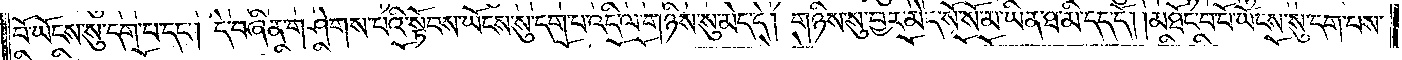པོ་ཡོངས་སུ་དག་པ་དང༌། དེ་བཞིན་གཤེགས་པའི་སྟོབས་ཡོངས་སུ་དག་པ་འདི་ལ་གཉིས་སུ་མེད་དེ། གཉིས་སུ་བྱར་མེད་སོ་སོ་མ་ཡིན་ཐ་མི་དད་དོ། །མཐོང་བ་པོ་ཡོངས་སུ་དག་པས་
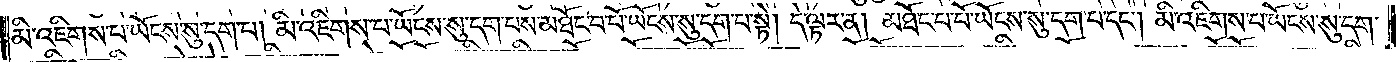མི་འཇིགས་པ་ཡོངས་སུ་དག་པ། མི་འཇིགས་པ་ཡོངས་སུ་དག་པས་མཐོང་བ་པོ་ཡོངས་སུ་དག་པ་སྟེ། དེ་ལྟར་ན། མཐོང་བ་པོ་ཡོངས་སུ་དག་པ་དང༌། མི་འཇིགས་པ་ཡོངས་སུ་དག་
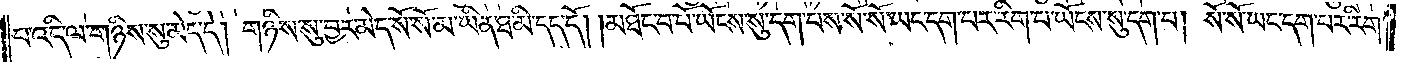པ་འདི་ལ་གཉིས་སུ་མེད་དེ། གཉིས་སུ་བྱར་མེད་སོ་སོ་མ་ཡིན་ཐ་མི་དད་དོ། །མཐོང་བ་པོ་ཡོངས་སུ་དག་པས་སོ་སོ་ཡང་དག་པར་རིག་པ་ཡོངས་སུ་དག་པ། སོ་སོ་ཡང་དག་པར་རིག་
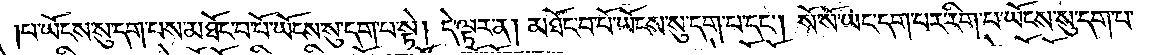པ་ཡོངས་སུ་དག་པས་མཐོང་བ་པོ་ཡོངས་སུ་དག་པ་སྟེ། དེ་ལྟར་ན། མཐོང་བ་པོ་ཡོངས་སུ་དག་པ་དང༌། སོ་སོ་ཡང་དག་པར་རིག་པ་ཡོངས་སུ་དག་པ་
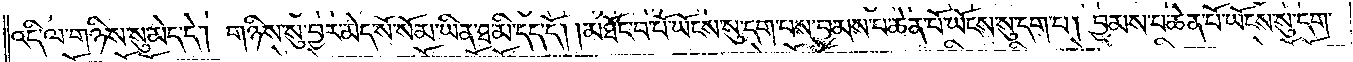འདི་ལ་གཉིས་སུ་མེད་དེ། གཉིས་སུ་བྱར་མེད་སོ་སོ་མ་ཡིན་ཐ་མི་དད་དོ། །མཐོང་བ་པོ་ཡོངས་སུ་དག་པས་བྱམས་པ་ཆེན་པོ་ཡོངས་སུ་དག་པ། བྱམས་པ་ཆེན་པོ་ཡོངས་སུ་དག་
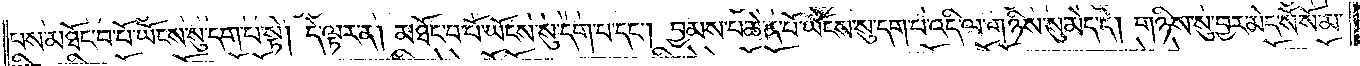པས་མཐོང་བ་པོ་ཡོངས་སུ་དག་པ་སྟེ། དེ་ལྟར་ན། མཐོང་བ་པོ་ཡོངས་སུ་དག་པ་དང༌། བྱམས་པ་ཆེན་པོ་ཡོངས་སུ་དག་པ་འདི་ལ་གཉིས་སུ་མེད་དེ། གཉིས་སུ་བྱར་མེད་སོ་སོ་མ་
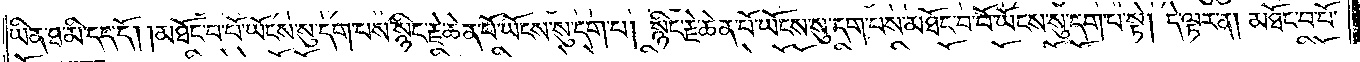ཡིན་ཐ་མི་དད་དོ། །མཐོང་བ་པོ་ཡོངས་སུ་དག་པས་སྙིང་རྗེ་ཆེན་པོ་ཡོངས་སུ་དག་པ། སྙིང་རྗེ་ཆེན་པོ་ཡོངས་སུ་དག་པས་མཐོང་བ་པོ་ཡོངས་སུ་དག་པ་སྟེ། དེ་ལྟར་ན། མཐོང་བ་པོ་
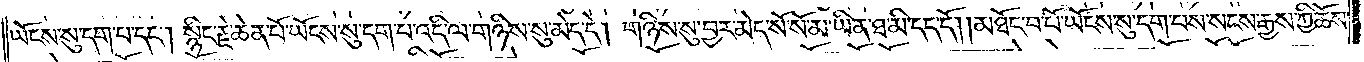ཡོངས་སུ་དག་པ་དང༌། སྙིང་རྗེ་ཆེན་པོ་ཡོངས་སུ་དག་པ་འདི་ལ་གཉིས་སུ་མེད་དེ། གཉིས་སུ་བྱར་མེད་སོ་སོ་མ་ཡིན་ཐ་མི་དད་དོ། །མཐོང་བ་པོ་ཡོངས་སུ་དག་པས་སངས་རྒྱས་ཀྱི་ཆོས་
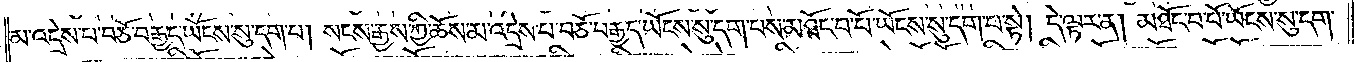མ་འདྲེས་པ་བཅོ་བརྒྱད་ཡོངས་སུ་དག་པ། སངས་རྒྱས་ཀྱི་ཆས་མ་འདྲེས་པ་བཅོ་བརྒྱད་ཡོངས་སུ་དག་པས་མཐོང་བ་པོ་ཡོངས་སུ་དག་པ་སྟེ། དེ་ལྟར་ན། མཐོང་བ་པོ་ཡོངས་སུ་དག་
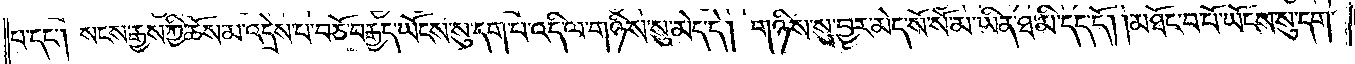པ་དང༌། སངས་རྒྱས་ཀྱི་ཆོས་མ་འདྲེས་པ་བཅོ་བརྒྱད་ཡོངས་སུ་དག་པ་འདི་ལ་གཉིས་སུ་མེད་དེ། གཉིས་སུ་བྱར་མེད་སོ་སོ་མ་ཡིན་ཐ་མི་དད་དོ། །མཐོང་བ་པོ་ཡོངས་སུ་དག་
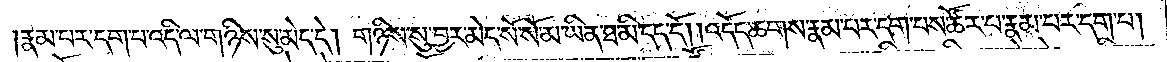རྣམ་པར་དག་པ་འདི་ལ་གཉིས་སུ་མེད་དེ། གཉིས་སུ་བྱར་མེད་སོ་སོ་མ་ཡིན་ཐ་མི་དད་དོ། །འདོད་ཆགས་རྣམ་པར་དག་པས་ཚོར་པ་པོ་རྣམ་པར་དག་པ།
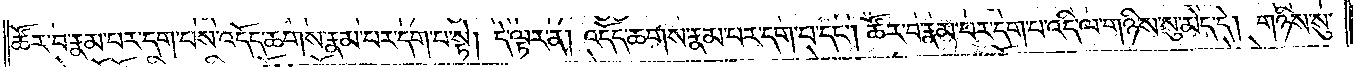ཚོར་བ་རྣམ་པར་དག་པས་འདོད་ཆགས་རྣམ་པར་དག་པ་སྟེ། དེ་ལྟར་ན། འདོད་ཆགས་རྣམ་པར་དག་པ་དང༌། ཚོར་བ་རྣམ་པར་དག་པ་འདི་ལ་གཉིས་སུ་མེད་དེ། གཉིས་སུ་
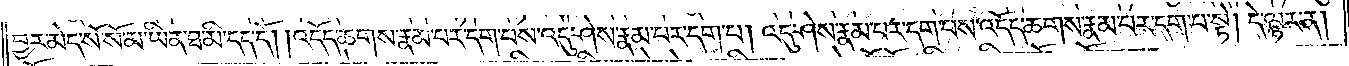བྱར་མེད་སོ་སོ་མ་ཡིན་ཐ་མི་དད་དོ། །འདོད་ཆགས་རྣམ་པར་དག་པས་འདུ་ཤེས་རྣམ་པར་དག་པ། འདུ་ཤེས་རྣམ་པར་དག་པས་འདོད་ཆགས་རྣམ་པར་དག་པ་སྟེ། དེ་ལྟར་ན།
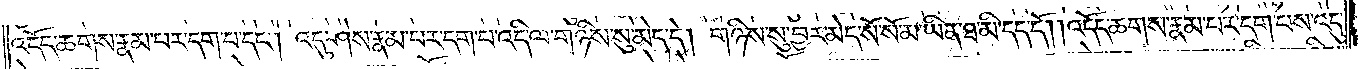འདོད་ཆགས་རྣམ་པར་དག་པ་དང༌། འདུ་ཤེས་རྣམ་པར་དག་པ་འདི་ལ་གཉིས་སུ་མེད་དེ། གཉིས་སུ་བྱར་མེད་སོ་སོ་མ་ཡིན་ཐ་མི་དད་དོ། །འདོད་ཆགས་རྣམ་པར་དག་པས་འདུ་
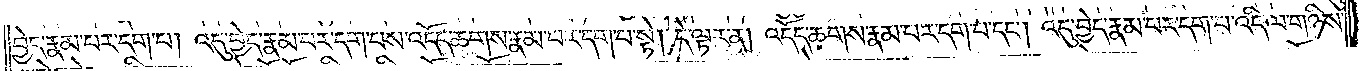བྱེད་རྣམ་པར་དག་པ། འདུ་བྱེད་རྣམ་པར་དག་པས་འདོད་ཆགས་རྣམ་པར་དག་པ་སྟེ། དེ་ལྟར་ན། འདོད་ཆགས་རྣམ་པར་དག་པ་དང༌། འདུ་བྱེད་རྣམ་པར་དག་པ་འདི་ལ་གཉིས་
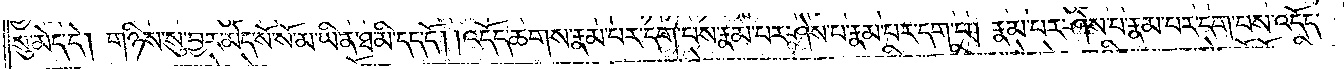སུ་མེད་དེ། གཉིས་སུ་བྱར་མེད་སོ་སོ་མ་ཡིན་ཐ་མི་དད་དོ། །འདོད་ཆགས་རྣམ་པར་དག་པས་རྣམ་པར་ཤེས་པ་རྣམ་པར་དག་པ། རྣམ་པར་ཤེས་པ་རྣམ་པར་དག་པས་འདོད་
